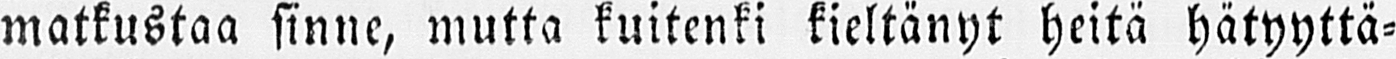matkustaa sinne, mutta kuitenki kieltänyt heitä hätyyttä-
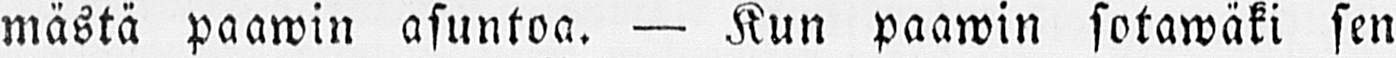mästä paawin asuntoa. — Kun paawin sotawäki sen
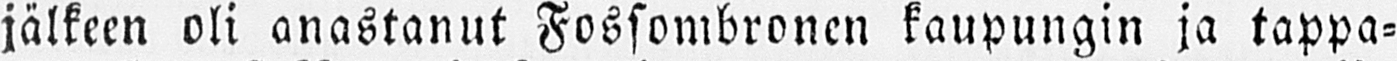jälkeen oli anastanut Fossombronen kaupungin ja tappa-
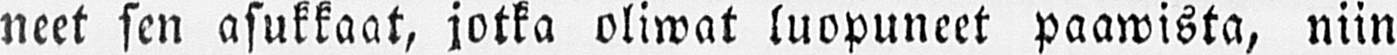neet sen asukkaat, jotka oliwat luopuneet paawista, niin
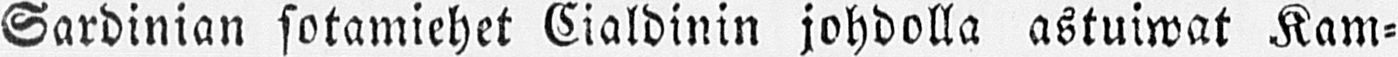Sardinian sotamiehet Cialdinin johdolla astuiwat Kam-
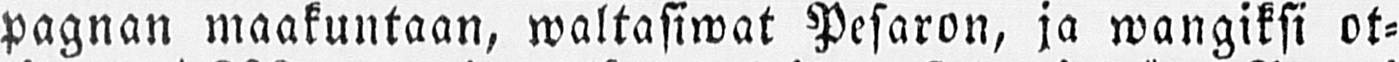pagnan maakuntaan, waltasiwat Pesaron, ja wangiksi ot-
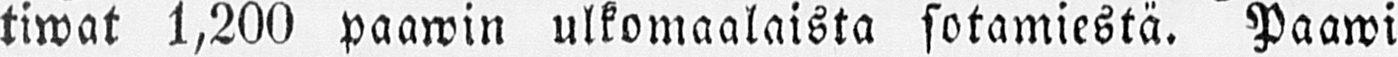tiwat 1,200 paawin ulkomaalaista sotamiestä. Paawi
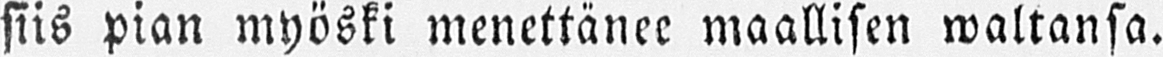siis pian myöski menettänee maallisen waltansa.
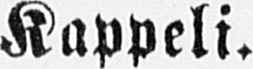Kappeli.
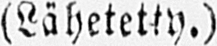(Lähetetty.)
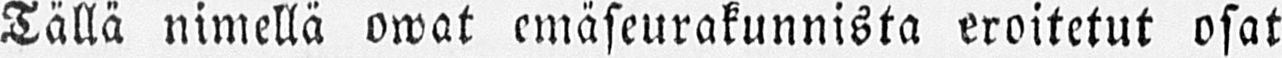Tällä nimellä owat emäseurakunnista eroitetut osat
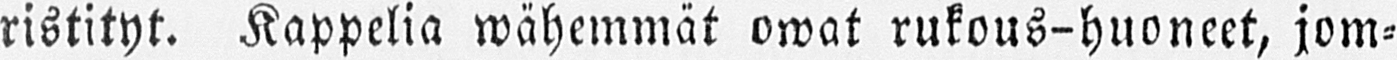ristityt. Kappelia wähemmät owat rukous-huoneet, jom-
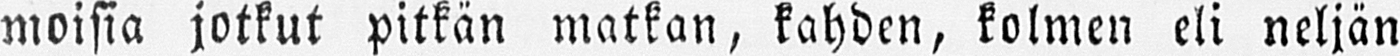moisia jotkut pitkän matkan, kahden, kolmen eli neljän
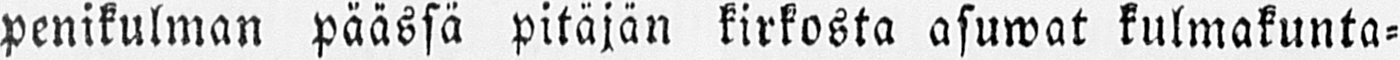penikulman päässä pitäjän kirkosta asuwat kulmakunta-
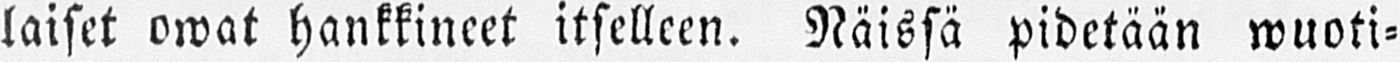laiset owat hankkineet itselleen. Näissä pidetään wuoti-
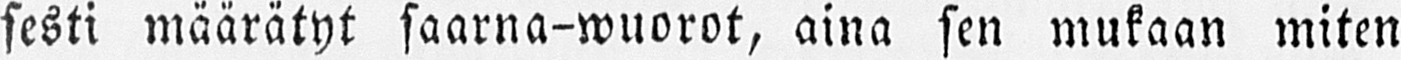sesti määrätyt saarna-wuorot, aina sen mukaan miten
